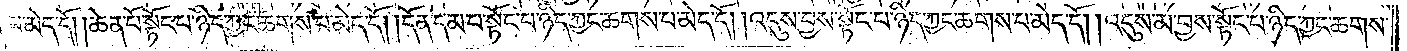པ་མེད་དོ། །ཆེན་པོ་སྟོང་པ་ཉིད་ཀྱང་ཆགས་པ་མེད་དོ། །དོན་དམ་པ་སྟོང་པ་ཉིད་ཀྱང་ཆགས་པ་མེད་དོ། །འདུས་བྱས་སྟོང་པ་ཉིད་ཀྱང་ཆགས་པ་མེད་དོ། །འདུས་མ་བྱས་སྟོང་པ་ཉིད་ཀྱང་ཆགས་
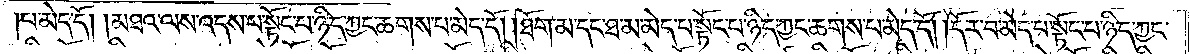པ་མེད་དོ། །མཐའ་ལས་འདས་པ་སྟོང་པ་ཉིད་ཀྱང་ཆགས་པ་མེད་དོ། །ཐོག་མ་དང་ཐ་མ་མེད་པ་སྟོང་པ་ཉིད་ཀྱང་ཆགས་པ་མེད་དོ། །དོར་བ་མེད་པ་སྟོང་པ་ཉིད་ཀྱང་
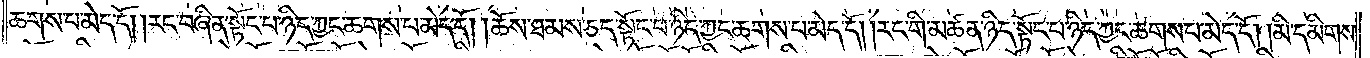ཆགས་པ་མེད་དོ། །རང་བཞིན་སྟོང་པ་ཉིད་ཀྱང་ཆགས་པ་མེད་དོ། །ཆོས་ཐམས་ཅད་སྟོང་པ་ཉིད་ཀྱང་ཆགས་པ་མེད་དོ། །རང་གི་མཚན་ཉིད་སྟོང་པ་ཉིད་ཀྱང་ཆགས་པ་མེད་དོ། །མི་དམིགས་
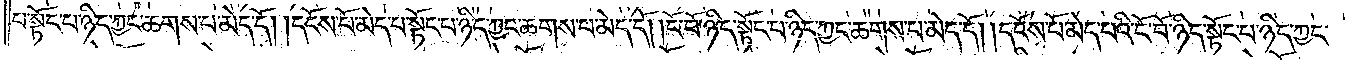པ་སྟོང་པ་ཉིད་ཀྱང་ཆགས་པ་མེད་དོ། །དངོས་པོ་མེད་པ་སྟོང་པ་ཉིད་ཀྱང་ཆགས་པ་མེད་དོ། །ངོ་བོ་ཉིད་སྟོང་པ་ཉིད་ཀྱང་ཆགས་པ་མེད་དོ། །དངོས་པོ་མེད་པའི་ངོ་བོ་ཉིད་སྟོང་པ་ཉིད་ཀྱང་
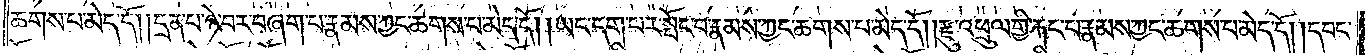ཆགས་པ་མེད་དོ། །དྲན་པ་ཉེ་བར་བཞག་པ་རྣམས་ཀྱང་ཆགས་པ་མེད་དོ། །ཡང་དག་པར་སྤོང་བ་རྣམས་ཀྱང་ཆགས་པ་མེད་དོ། །རྫུ་འཕྲུལ་གྱི་རྐང་པ་རྣམས་ཀྱང་ཆགས་པ་མེད་དོ། །དབང་
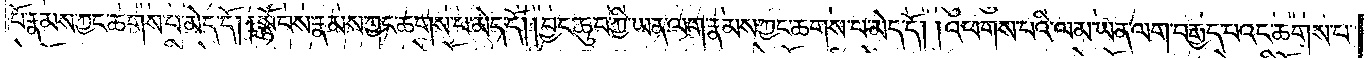པོ་རྣམས་ཀྱང་ཆགས་པ་མེད་དོ། །སྟོབས་རྣམས་ཀྱང་ཆགས་པ་མེད་དོ། །བྱང་ཆུབ་ཀྱི་ཡན་ལག་རྣམས་ཀྱང་ཆགས་པ་མེད་དོ། །འཕགས་པའི་ལམ་ཡན་ལག་བརྒྱད་པའང་ཆགས་པ་
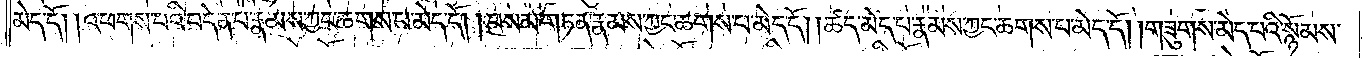མེད་དོ། །འཕགས་པའི་བདེན་པ་རྣམས་ཀྱང་ཆགས་པ་མེད་དོ། །བསམ་གཏན་རྣམས་ཀྱང་ཆགས་པ་མེད་དོ། །ཚད་མེད་པ་རྣམས་ཀྱང་ཆགས་པ་མེད་དོ། །གཟུགས་མེད་པའི་སྙོམས་
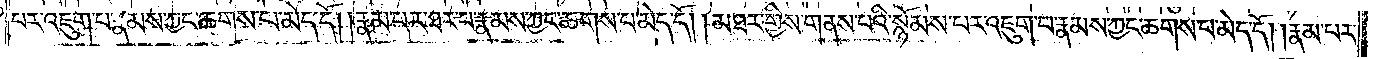པར་འཇུག་པ་རྣམས་ཀྱང་ཆགས་པ་མེད་དོ། །རྣམ་པར་ཐར་པ་རྣམས་ཀྱང་ཆགས་པ་མེད་དོ། །མཐར་གྱིས་གནས་པའི་སྙོམས་པར་འཇུག་པ་རྣམས་ཀྱང་ཆགས་པ་མེད་དོ། །རྣམ་པར་
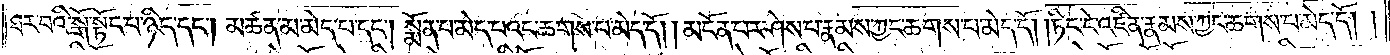ཐར་པའི་སྒོ་སྟོང་པ་ཉིད་དང༌། མཚན་མ་མེད་པ་དང༌། སྨོན་པ་མེད་པའང་ཆགས་པ་མེད་དོ། །མངོན་པར་ཤེས་པ་རྣམས་ཀྱང་ཆགས་པ་མེད་དོ། །ཏིང་ངེ་འཛིན་རྣམས་ཀྱང་ཆགས་པ་མེད་དོ། །
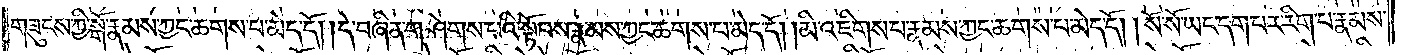གཟུངས་ཀྱི་སྒོ་རྣམས་ཀྱང་ཆགས་པ་མེད་དོ། །དེ་བཞིན་གཤེགས་པའི་སྟོབས་རྣམས་ཀྱང་ཆགས་པ་མེད་དོ། །མི་འཇིགས་པ་རྣམས་ཀྱང་ཆགས་པ་མེད་དོ། །སོ་སོ་ཡང་དག་པར་རིག་པ་རྣམས་
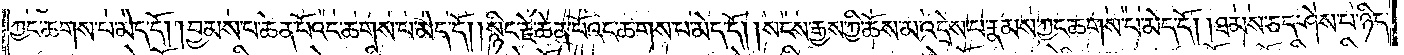ཀྱང་ཆགས་པ་མེད་དོ། །བྱམས་པ་ཆེན་པོའང་ཆགས་པ་མེད་དོ། །སྙིང་རྗེ་ཆེན་པོའང་ཆགས་པ་མེད་དོ། །སངས་རྒྱས་ཀྱི་ཆོས་མ་འདྲེས་པ་རྣམས་ཀྱང་ཆགས་པ་མེད་དོ། །ཐམས་ཅད་ཤེས་པ་ཉིད་
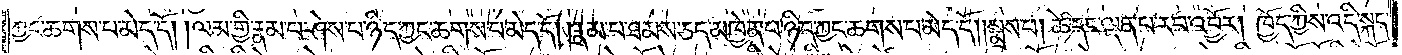ཀྱང་ཆགས་པ་མེད་དོ། །ལམ་གྱི་རྣམ་པར་ཤེས་པ་ཉིད་ཀྱང་ཆགས་པ་མེད་དོ། །རྣམ་པ་ཐམས་ཅད་མཁྱེན་པ་ཉིད་ཀྱང་ཆགས་པ་མེད་དོ། །སྨྲས་པ། ཚེ་དང་ལྡན་པ་རབ་འབྱོར། ཁྱོད་ཀྱིས་འདི་སྐད་
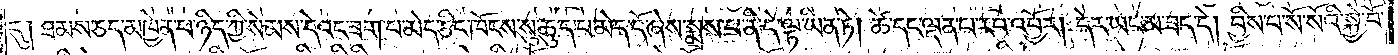དུ། ཐམས་ཅད་མཁྱེན་པ་ཉིད་ཀྱི་སེམས་དེའང་ཟག་པ་མེད་ཅིང་ཁོངས་སུ་ཆུད་པ་མེད་དོ་ཞེས་སྨྲས་པ་ནི་དེ་ལྟ་མ་ཡིན་ཏེ། ཚེ་དང་ལྡན་པ་རབ་འབྱོར། དེར་ཡང་མ་ཟད་དེ། བྱིས་པ་སོ་སོའི་སྐྱེ་བོ་
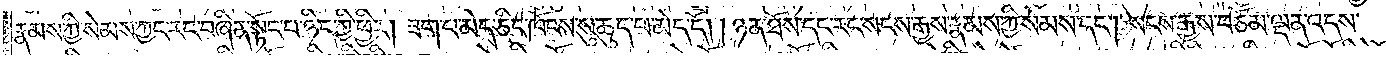རྣམས་ཀྱི་སེམས་ཀྱང་རང་བཞིན་སྟོང་པ་ཉིད་ཀྱི་ཕྱིར། ཟག་པ་མེད་ཅིང་ཁོངས་སུ་ཆུད་པ་མེད་དོ། །ཉན་ཐོས་དང་རང་སངས་རྒྱས་རྣམས་ཀྱི་སེམས་དང༌། སངས་རྒྱས་བཅོམ་ལྡན་འདས་
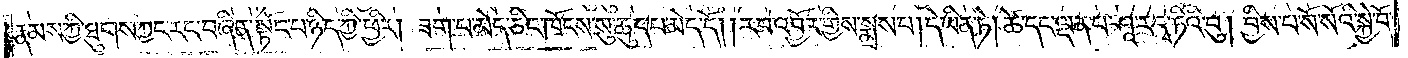རྣམས་ཀྱི་ཐུགས་ཀྱང་རང་བཞིན་སྟོང་པ་ཉིད་ཀྱི་ཕྱིར། ཟག་པ་མེད་ཅིང་ཁོངས་སུ་ཆུད་པ་མེད་དོ། །རབ་འབྱོར་གྱིས་སྨྲས་པ། དེ་ཡིན་ཏེ། ཚེ་དང་ལྡན་པ་ཤཱ་ར་དྭ་ཏིའི་བུ། བྱིས་པ་སོ་སོའི་སྐྱེ་བོ་
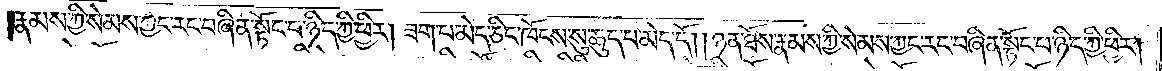རྣམས་ཀྱིས་སེམས་ཀྱང་རང་བཞིན་སྟོང་པ་ཉིད་ཀྱི་ཕྱིར། ཟག་པ་མེད་ཅིང་ཁོངས་སུ་ཆུད་པ་མེད་དོ། །ཉན་ཐོས་རྣམས་ཀྱི་སེམས་ཀྱང་རང་བཞིན་སྟོང་པ་ཉིད་ཀྱི་ཕྱིར།
